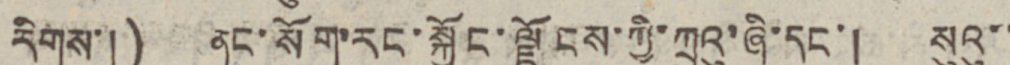རིགས་།) ནང་སོག་རང་སྐྱོང་ལྗོངས་ཀྱི་ཀྲུའུ་ཞི་དང་། སུའུ་་
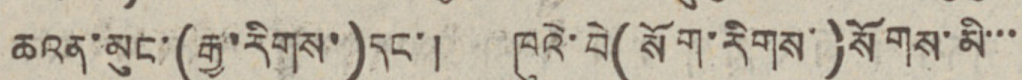ཆའན་མུང་(རྒྱ་རིགས་)དང་། ཁུའེ་བེ(སོག་རིགས་)སོགས་མི་་་
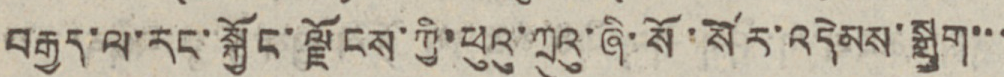བརྒྱད་ལ་རང་སྐྱོང་ལྗོངས་ཀྱི་ཕུའུ་ཀྲུའུ་ཞི་སོ་སོར་འདེམས་སྒྲུག་་་
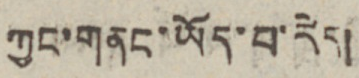ཀྱང་གནང་ཡོད་པ་རེད།
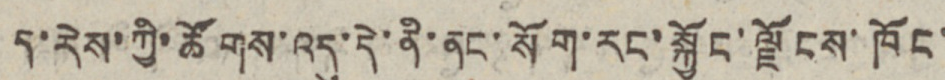ད་རེས་ཀྱི་ཚོགས་འདུ་དེ་ནི་ནང་སོག་རང་སྐྱོང་ལྗོངས་ཁོང་
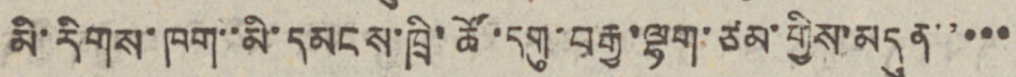མི་རིགས་ཁག་་མི་དམངས་ཁྲི་ཚོ་དགུ་བརྒྱ་ལྷག་ཙམ་གྱིས་མདུན་་་་་
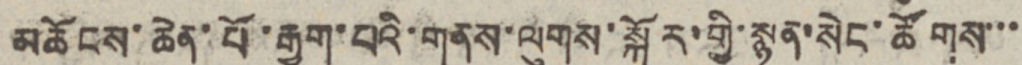མཆོངས་ཆེན་པོ་རྒྱག་པའི་གནས་ལུགས་སྐོར་གྱི་སྙན་སེང་ཚོགས་་་
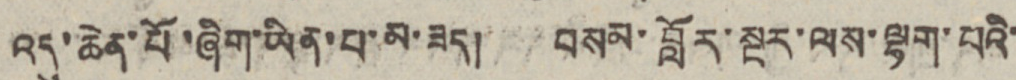འདུ་ཆེན་པོ་ཞིག་ཡིན་པ་མ་ཟད། བསམ་བློར་སྔར་ལས་ལྷག་པའི་
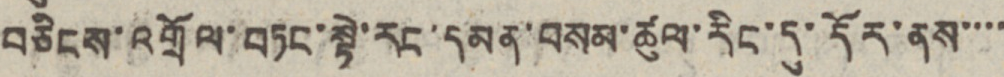བཅིངས་འགྲོལ་བཏང་སྟེ་རང་དམན་བསམ་ཚུལ་རིང་དུ་དོར་ནས་་་་
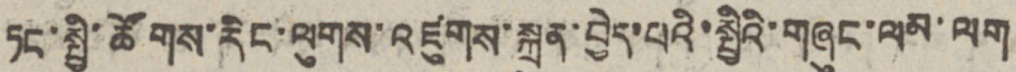ཏང་སྤྱི་ཚོགས་རིང་ལུགས་འཛུགས་སྐྲུན་བྱེད་པའི་སྤྱིའི་གཞུང་ལམ་ལག
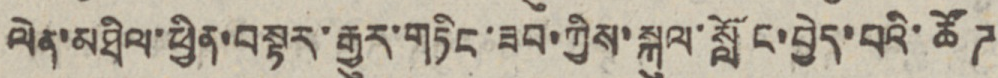ལེན་མཐིལ་ཕྱིན་བསྟར་རྒྱུར་གཏིང་ཟབ་ཀྱིས་སྐུལ་སློང་བྱེད་པའི་ཚོཊ་
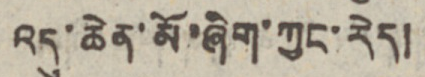འདུ་ཆེན་མོ་ཞིག་ཀྱང་རེད།
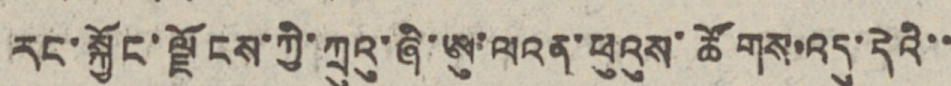རང་སྐྱོང་ལྗོངས་ཀྱི་ཀྲུའུ་ཞི་ཨུ་ལའན་ཕུའུས་ཚོགས་འདུ་དེའི་་
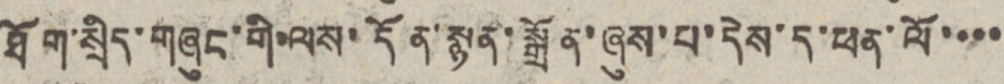ཐོག་སྲིད་གཞུང་གི་ལས་དོན་སྙན་སྒྲོན་ཞུས་པ་དེས་ད་ཕན་ལོ་་་་
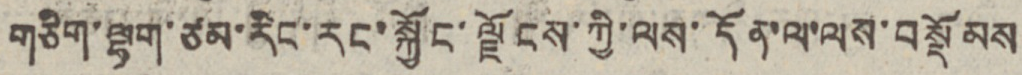གཅིག་ལྷག་ཙམ་རིང་རང་སྐྱོང་ལྗོངས་ཀྱི་ལས་དོན་ལ་ལས་བསྡོམས
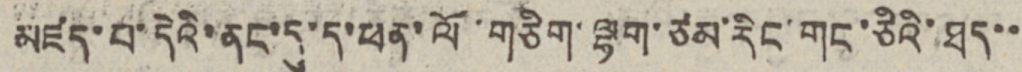མཛད་པ་དེའི་ནང་དུ་ད་ཕན་ལོ་གཅིག་ལྷག་ཙམ་རིང་གང་ཅིའི་ཐད་་
